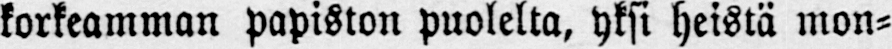korkeamman papiston puolelta, yksi heistä mon-
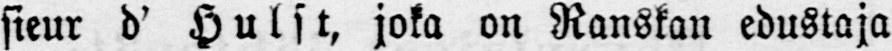sieur d' Hulst, joka on Ranskan edustaja
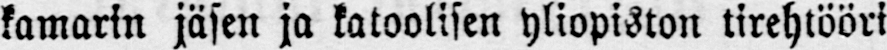kamarin jäsen ja katoolisen yliopiston tirehtööri
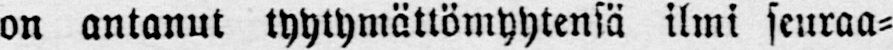on antanut tyytymättömyytensä ilmi seuraa-
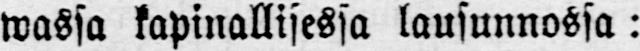wassa kapinallisessa lausunnossa:
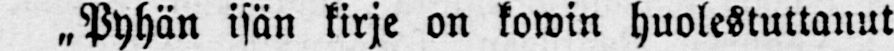˶Pyhän isän kirje on kowin huolestuttanut
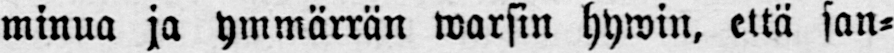minua ja ymmärrän warsin hywin, että san-
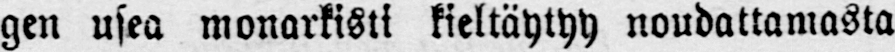gen usea monarkisti kieltäytyy noudattamasta
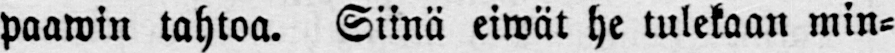paawin tahtoa. Siinä eiwät he tulekaan min-
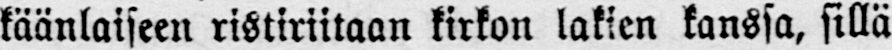käänlaiseen ristiriitaan kirkon lakien kanssa, sillä
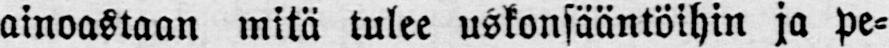ainoastaan mitä tulee uskonsääntöihin ja pe-
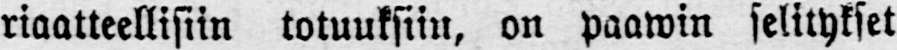riaatteellisiin totuuksiin, on paawin selitykset
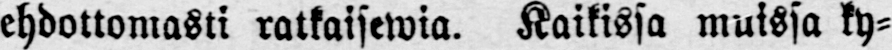ehdottomasti ratkaisewia. Kaikissa muissa ky-
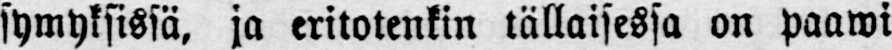symyksissä, ja eritotenkin tällaisessa on paawi
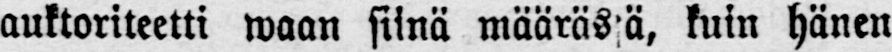auktoriteetti waan siinä määrässä, kuin hänen
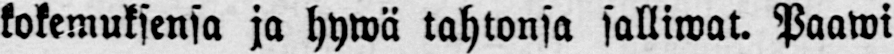kokemuksensa ja hywä tahtonsa salliwat. Paawi
